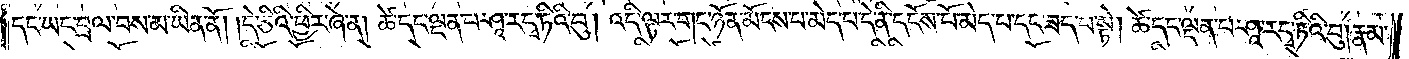དང་ཡང་བྲལ་བས་མ་ཡིན་ནོ། །དེ་ཅིའི་ཕྱིར་ཞེ་ན། ཚེ་དང་ལྡན་པ་ཤཱ་ར་དྭ་ཏིའི་བུ། འདི་ལྟར་གང་ཉོན་མོངས་པ་མེད་པ་དེ་ནི་དངོས་པོ་མེད་པ་དང་ཟད་པ་སྟེ། ཚེ་དང་ལྡན་པ་ཤཱ་ར་དྭ་ཏིའི་བུ། རྣམ་
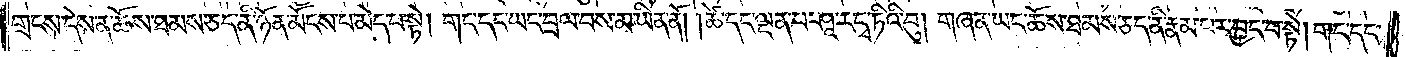གྲངས་དེས་ན་ཆོས་ཐམས་ཅད་ནི་ཉོན་མོངས་པ་མེད་པ་སྟེ། གང་དང་ཡང་བྲལ་བས་མ་ཡིན་ནོ། །ཚེ་དང་ལྡན་པ་ཤཱ་ར་དྭ་ཏིའི་བུ། གཞན་ཡང་ཆོས་ཐམས་ཅད་ནི་རྣམ་པར་བྱང་བ་སྟེ། གང་དང་
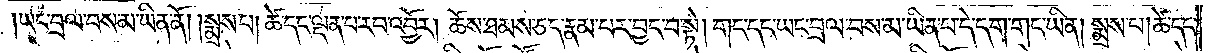ཡང་བྲལ་བས་མ་ཡིན་ནོ། །སྨྲས་པ། ཚེ་དང་ལྡན་པ་རབ་འབྱོར། ཆོས་ཐམས་ཅད་རྣམ་པར་བྱང་བ་སྟེ། གང་དང་ཡང་བྲལ་བས་མ་ཡིན་པ་དེ་དག་གང་ཡིན། སྨྲས་པ། ཚེ་དང་
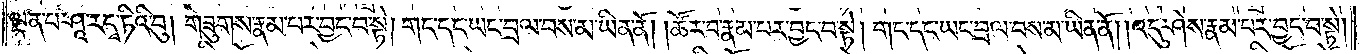ལྡན་པ་ཤཱ་ར་དྭ་ཏིའི་བུ། གཟུགས་རྣམ་པར་བྱང་བ་སྟེ། གང་དང་ཡང་བྲལ་བས་མ་ཡིན་ནོ། །ཚོར་བ་རྣམ་པར་བྱང་བ་སྟེ། གང་དང་ཡང་བྲལ་བས་མ་ཡིན་ནོ། །འདུ་ཤེས་རྣམ་པར་བྱང་བ་སྟེ།
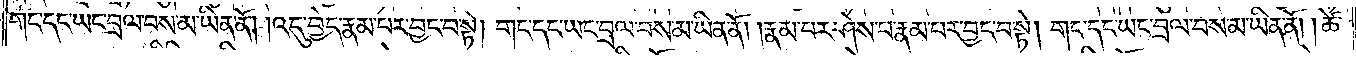གང་དང་ཡང་བྲལ་བས་མ་ཡིན་ནོ། འདུ་བྱེད་རྣམ་པར་བྱང་བ་སྟེ། གང་དང་ཡང་བྲལ་བས་མ་ཡིན་ནོ། །རྣམ་པར་ཤེས་པ་རྣམ་པར་བྱང་བ་སྟེ། གང་དང་ཡང་བྲལ་བས་མ་ཡིན་ནོ། །ཚེ་
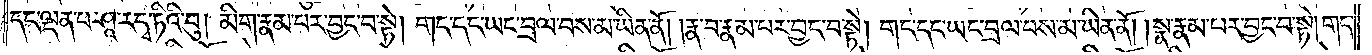དང་ལྡན་པ་ཤཱ་ར་དྭ་ཏིའི་བུ། མིག་རྣམ་པར་བྱང་བ་སྟེ། གང་དང་ཡང་བྲལ་བས་མ་ཡིན་ནོ། །རྣ་བ་རྣམ་པར་བྱང་བ་སྟེ། གང་དང་ཡང་བྲལ་བས་མ་ཡིན་ནོ། །སྣ་རྣམ་པར་བྱང་བ་སྟེ།གང་
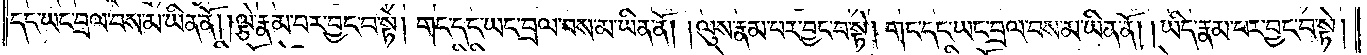དང་ཡང་བྲལ་བས་མ་ཡིན་ནོ། །ལྕེ་རྣམ་པར་བྱང་བ་སྟེ། གང་དང་ཡང་བྲལ་བས་མ་ཡིན་ནོ། །ལུས་རྣམ་པར་བྱང་བ་སྟེ། གང་དང་ཡང་བྲལ་བས་མ་ཡིན་ནོ། །ཡིད་རྣམ་པར་བྱང་བ་སྟེ།
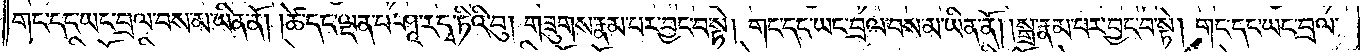གང་དང་ཡང་བྲལ་བས་མ་ཡིན་ནོ། །ཚེ་དང་ལྡན་པ་ཤཱ་ར་དྭ་ཏིའི་བུ། གཟུགས་རྣམ་པར་བྱང་བ་སྟེ། གང་དང་ཡང་བྲལ་བས་མ་ཡིན་ནོ། །སྒྲ་རྣམ་པར་བྱང་བ་སྟེ། གང་དང་ཡང་བྲལ་
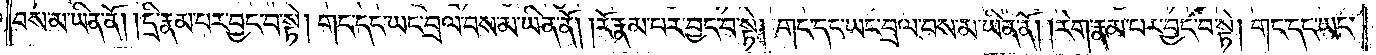བས་མ་ཡིན་ནོ། །དྲི་རྣམ་པར་བྱང་བ་སྟེ། གང་དང་ཡང་བྲལ་བས་མ་ཡིན་ནོ། །རོ་རྣམ་པར་བྱང་བ་སྟེ། གང་དང་ཡང་བྲལ་བས་མ་ཡིན་ནོ། །རེག་རྣམ་པར་བྱང་བ་སྟེ། གང་དང་ཡང་
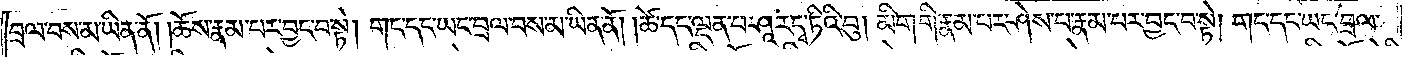བྲལ་བས་མ་ཡིན་ནོ། །ཆོས་རྣམ་པར་བྱང་བ་སྟེ། གང་དང་ཡང་བྲལ་བས་མ་ཡིན་ནོ། །ཚེ་དང་ལྡན་པ་ཤཱ་ར་དྭ་ཏིའི་བུ། མིག་གི་རྣམ་པར་ཤེས་པ་རྣམ་པར་བྱང་བ་སྟེ། གང་དང་ཡང་བྲལ་
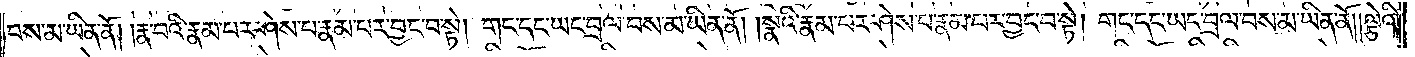བས་མ་ཡིན་ནོ། །རྣ་བའི་རྣམ་པར་ཤེས་པ་རྣམ་པར་བྱང་བ་སྟེ། གང་དང་ཡང་བྲལ་བས་མ་ཡིན་ནོ། །སྣའི་རྣམ་པར་ཤེས་པ་རྣམ་པར་བྱང་བ་སྟེ། གང་དང་ཡང་བྲལ་བས་མ་ཡིན་ནོ། །ལྕེའི་
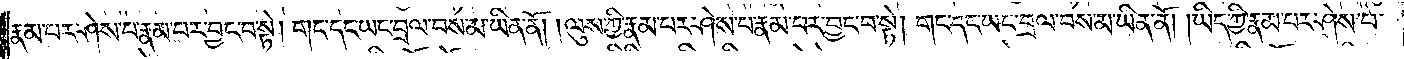རྣམ་པར་ཤེས་པ་རྣམ་པར་བྱང་བ་སྟེ། གང་དང་ཡང་བྲལ་བས་མ་ཡིན་ནོ། །ལུས་ཀྱི་རྣམ་པར་ཤེས་པ་རྣམ་པར་བྱང་བ་སྟེ། གང་དང་ཡང་བྲལ་བས་མ་ཡིན་ནོ། །ཡིད་ཀྱི་རྣམ་པར་ཤེས་པ་
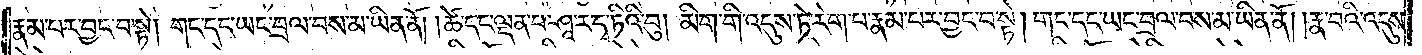རྣམ་པར་བྱང་བ་སྟེ། གང་དང་ཡང་བྲལ་བས་མ་ཡིན་ནོ། །ཚེ་དང་ལྡན་པ་ཤཱ་ར་དྭ་ཏིའི་བུ། མིག་གི་འདུས་ཏེ་རེག་པ་རྣམ་པར་བྱང་བ་སྟེ། གང་དང་ཡང་བྲལ་བས་མ་ཡིན་ནོ། །རྣ་བའི་འདུས་
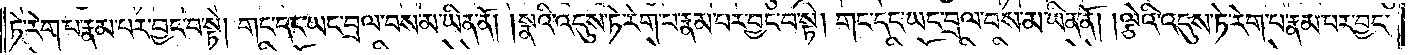ཏེ་རེག་པ་རྣམ་པར་བྱང་བ་སྟེ། གང་དང་ཡང་བྲལ་བས་མ་ཡིན་ནོ། །སྣའི་འདུས་ཏེ་རེག་པ་རྣམ་པར་བྱང་བ་སྟེ། གང་དང་ཡང་བྲལ་བས་མ་ཡིན་ནོ། །ལྕེའི་འདུས་ཏེ་རེག་པ་རྣམ་པར་བྱང་
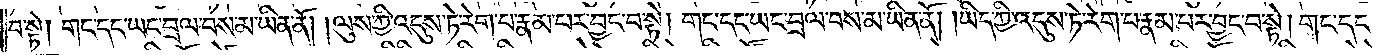བ་སྟེ། གང་དང་ཡང་བྲལ་བས་མ་ཡིན་ནོ། །ལུས་ཀྱི་འདུས་ཏེ་རེག་པ་རྣམ་པར་བྱང་བ་སྟེ། གང་དང་ཡང་བྲལ་བས་མ་ཡིན་ནོ། །ཡིད་ཀྱི་འདུས་ཏེ་རེག་པ་རྣམ་པར་བྱང་བ་སྟེ། གང་དང་
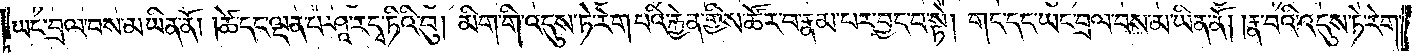ཡང་བྲལ་བས་མ་ཡིན་ནོ། །ཚེ་དང་ལྡན་པ་ཤཱ་ར་དྭ་ཏིའི་བུ། མིག་གི་འདུས་ཏེ་རེག་པའི་རྐྱེན་གྱིས་ཚེ་རབ་རྣམ་པར་བྱང་བ་སྟེ། གང་དང་ཡང་བྲལ་བས་མ་ཡིན་ནོ། །རྣ་བའི་འདུས་ཏེ་རེག་
